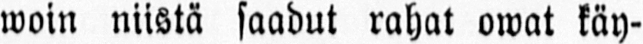woin niistä saadut rahat owat käy-
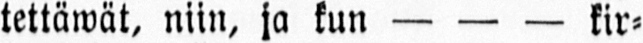tettäwät, niin, ja kun — — — kir-
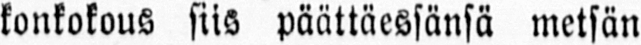konkokous siis pänttäessänsä metsän
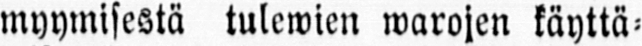myymisestä tulewien warojen käyttä-
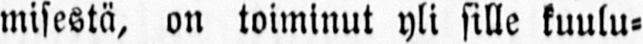misestä, on toiminut yli sille kuulu-
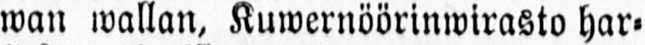wan wallan, Kuwernöörinwirasto har-
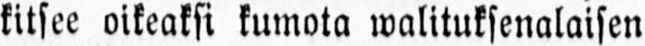kitsee oikeaksi kumota walituksenalaisen
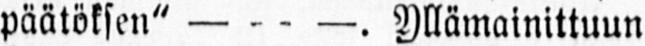päätöksen" — — —. Yllämainittuun
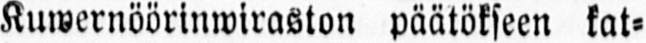Kuwernöörinwiraston päätökseen kat-
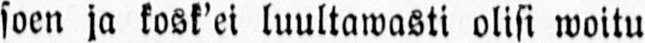soen ja kosk’ei luultawasti olisi woitu
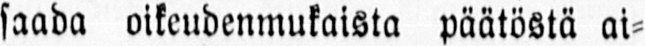saada oikeudenmukaista päätöstä ai-
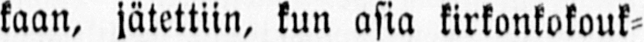taan, jätettiin, kun asia kirkonkokouk-
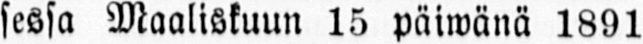sessa Maaliskuun 15 päiwänä 1891
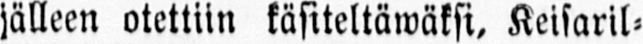jälleen otettiin käsiteltäwäksi. Keisaril-
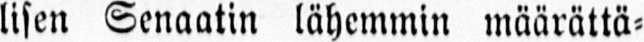lisen Senaatin lähemmin määrättä-
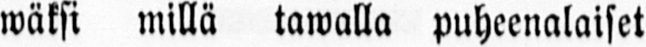wäksi millä tawalla puheenalaiset
